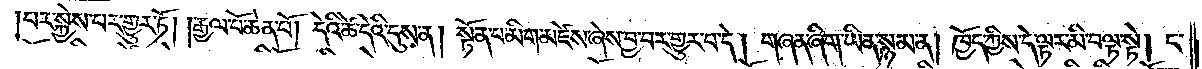པར་སྐྱེས་པར་གྱུར་ཏོ། །རྒྱལ་པོ་ཆེན་པོ། དེའི་ཚེ་དེའི་དུས་ན། སྟོན་པ་མིག་མཛེས་ཞེས་བྱ་བར་གྱུར་པ་དེ། གཞན་ཞིག་ཡིན་སྙམ་ན། ཁྱོད་ཀྱིས་དེ་ལྟར་མི་བལྟ་སྟེ། ང་
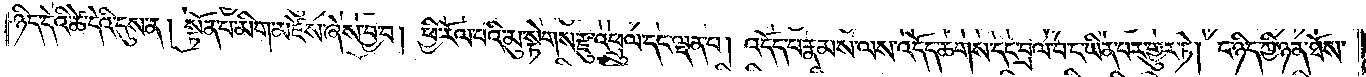ཉིད་དེའི་ཚེ་དེའི་དུས་ན། སྟོན་པ་མིག་མཛེས་ཞེས་བྱ་བ། ཕྱི་རོལ་པའི་མུ་སྟེགས་རྫུ་འཕྲུལ་དང་ལྡན་པ། འདོད་པ་རྣམས་ལས་འདོད་ཆགས་དང་བྲལ་བ་ང་ཡིན་པར་གྱུར་ཏེ། ང་ཉིད་ཀྱི་ཉན་ཐོས་
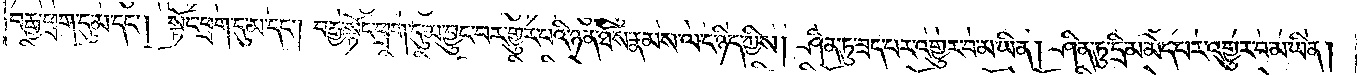བརྒྱ་ཕྲག་དུ་མ་དང༌། སྟོང་ཕྲག་དུ་མ་དང༌། བརྒྱ་སྟོང་ཕྲག་དུ་མ་བྱུང་བར་གྱུར་པའི་ཉན་ཐོས་རྣམས་ལ་ང་ཉིད་ཀྱིས། ཤིན་ཏུ་ཟད་པར་འགྱུར་བ་མ་ཡིན། ཤིན་ཏུ་དྲི་མ་མེད་པར་འགྱུར་བ་མ་ཡིན།
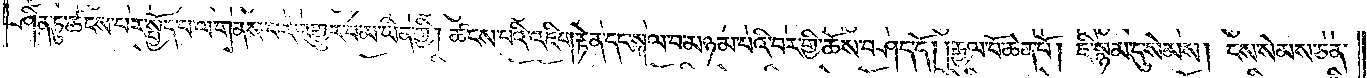ཤིན་ཏུ་ཚངས་པར་སྤྱོད་པ་ལ་གནས་པར་འགྱུར་བ་མ་ཡིན་གྱི། ཚངས་པའི་འཇིག་རྟེན་དང་སྐལ་བ་མཉམ་པའི་བར་གྱི་ཆོས་བཤད་དོ། །རྒྱལ་པོ་ཆེན་པོ། ཇི་སྙམ་དུ་སེམས། ངས་སེམས་ཅན་
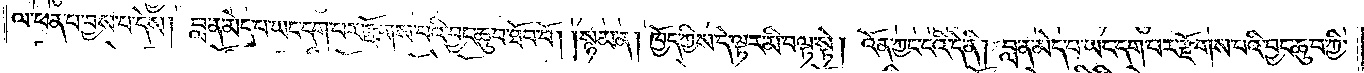ལ་ཕན་པ་བྱས་པ་དེས། བླ་ན་མེད་པ་ཡང་དག་པར་རྫོགས་པའི་བྱང་ཆུབ་ཐོབ་བོ། །སྙམ་ན། ཁྱོད་ཀྱིས་དེ་ལྟར་མི་བལྟ་སྟེ། འོན་ཀྱང་ངའི་དེ་ནི། བླ་ན་མེད་པ་ཡང་དག་པར་རྫོགས་པའི་བྱང་ཆུབ་ཀྱི་
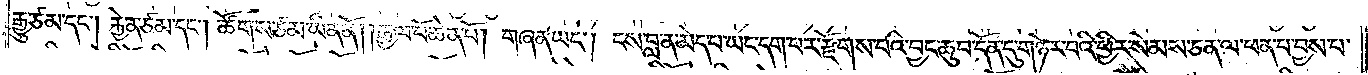རྒྱུ་ཙམ་དང༌། རྐྱེན་ཙམ་དང༌། ཚོགས་ཙམ་ཡིན་ནོ། །རྒྱལ་པོ་ཆེན་པོ། གཞན་ཡང༌། ངས་བླ་ན་མེད་པ་ཡང་དག་པར་རྫོགས་པའི་བྱང་ཆུབ་དོན་དུ་གཉེར་བའི་ཕྱིར་སེམས་ཅན་ལ་ཕན་པ་བྱས་པ་
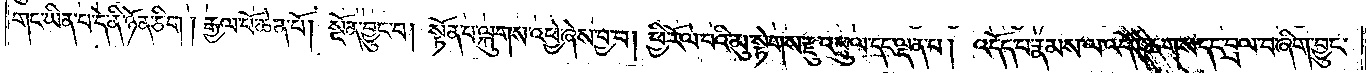གང་ཡིན་པ་དེ་ནི་ཉོན་ཅིག །རྒྱལ་པོ་ཆེན་པོ། སྔོན་བྱུང་བ། སྟོན་པ་ལྐུགས་འཕྱེ་ཞེས་བྱ་བ། ཕྱི་རོལ་པའི་མུ་སྟེགས་རྫུ་འཕྲུལ་དང་ལྡན་པ། འདོད་པ་རྣམས་ལ་འདོད་ཆགས་དང་བྲལ་བ་ཞིག་བྱུང་
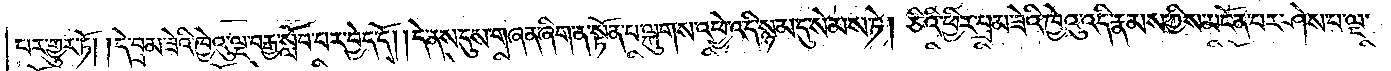པར་གྱུར་ཏོ། །དེ་བྲམ་ཟེའི་ཁྱེའུ་ལྔ་བརྒྱ་སློབ་པར་བྱེད་དོ། །དེ་ནས་དུས་གཞན་ཞིག་ན་སྟོན་པ་ལྐུགས་འཕྱེ་འདི་སྙམ་དུ་སེམས་ཏེ། ཅིའི་ཕྱིར་བྲམ་ཟེའི་ཁྱེའུ་འདི་རྣམས་ཀྱིས་མངོན་པར་ཤེས་པ་ལྔ་
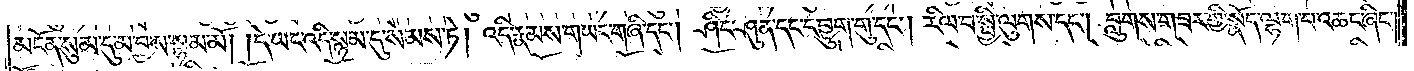མངོན་སུམ་དུ་མ་བྱས་སྙམ་མོ། །དེ་ཡང་འདི་སྙམ་དུ་སེམས་ཏེ། འདི་རྣམས་གཡང་གཞི་དང༌། ཤིང་ཤུན་དང་དབྱུག་གུ་དང༌། རིལ་བ་སྤྱི་ལུགས་དང༌། བླུགས་གཟར་གྱི་སྣོད་ལྷག་པར་འཆང་ཞིང༌།
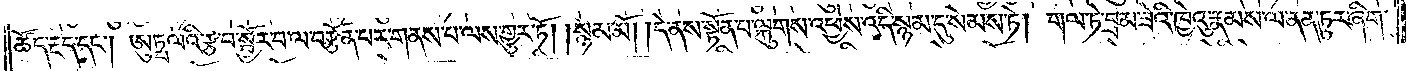ཚོད་རྔད་དང༌། ཨུཏྤལའི་རྩ་བ་སྦྱོར་བ་ལ་བརྩོན་པར་གནས་པ་ལས་གྱུར་ཏོ། །སྙམ་མོ། །དེ་ནས་སྟོན་པ་ལྐུགས་འཕྱེས་འདི་སྙམ་དུ་སེམས་ཏེ། གལ་ཏེ་བྲམ་ཟེའི་ཁྱེའུ་རྣམས་ལ་ནན་ཏུར་ཞིག་
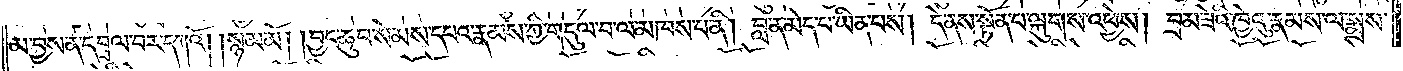མ་བྱས་ན་དབྲལ་བར་དཀའོ། །སྙམ་མོ། །བྱང་ཆུབ་སེམས་དཔའ་རྣམས་ཀྱི་གདུལ་བ་ལ་མཁས་པ་ནི། བླ་ན་མེད་པ་ཡིན་པས། དེ་ནས་སྟོན་པ་ལྐུགས་འཕྱེས། བྲམ་ཟེའི་ཁྱེའུ་རྣམས་ལ་སྨྲས་
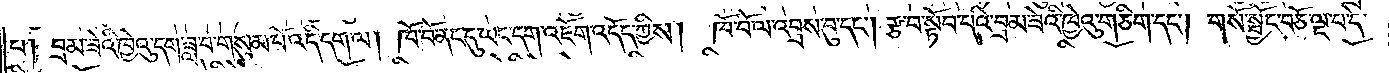པ། བྲམ་ཟེའི་ཁྱེའུ་དག་ཟླ་བ་གསུམ་པོ་འདི་དག་ལ། ཁོ་བོ་ནང་དུ་ཡང་དག་འཇོག་འདོད་ཀྱིས། ཁོ་བོ་ལ་འབྲས་བུ་དང༌། རྩ་བ་སྟོབ་པའི་བྲམ་ཟེའི་ཁྱེའུ་གཅིག་དང༌། གསོ་སྦྱོང་བཅོ་ལྔ་པ་དེ་
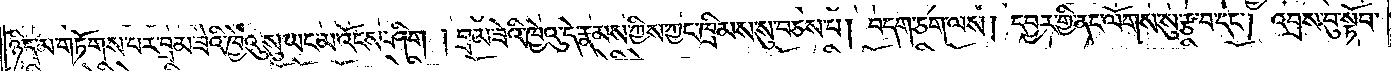ཉིད་མ་གཏོགས་པར་བྲམ་ཟེའི་ཁྱེའུ་སུ་ཡང་མ་འོངས་ཤིག །བྲམ་ཟེའི་ཁྱེའུ་དེ་རྣམས་ཀྱིས་ཀྱང་ཁྲིམས་སུ་བཅས་པ། བདག་ཅག་ལས། དབྱར་གྱི་ནང་ལོགས་སུ་རྩ་བ་དང༌། འབྲས་བུ་སྟོབ་
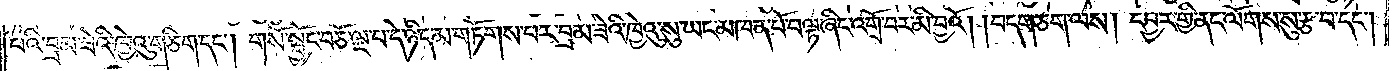པའི་བྲམ་ཟེའི་ཁྱེའུ་གཅིག་དང༌། གསོ་སྦྱོང་བཅོ་ལྔ་པ་དེ་ཉིད་མ་གཏོགས་པར་བྲམ་ཟེའི་ཁྱེའུ་སུ་ཡང་མཁན་པོ་བལྟ་ཞིང་འགྲོ་བར་མི་བྱའོ། །བདག་ཅག་ལས། དབྱར་གྱི་ནང་ལོགས་སུ་རྩ་བ་དང༌།
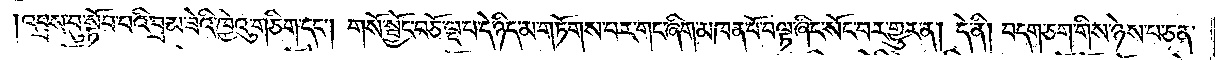འབྲས་བུ་སྟོབ་པའི་བྲམ་ཟེའི་ཁྱེའུ་གཅིག་དང༌། གསོ་སྦྱོང་བཅོ་ལྔ་པ་དེ་ཉིད་མ་གཏོགས་པར་གང་ཞིག་མཁན་པོ་བལྟ་ཞིང་སོང་བར་གྱུར་ན། དེ་ནི། བདག་ཅག་གིས་ཉེས་པ་ཅན་
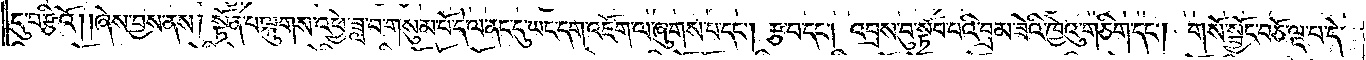དུ་བརྩིའོ། །ཞེས་བྱས་ནས། སྟོན་པ་ལྐུགས་འཕྱེ་ཟླ་བ་གསུམ་པོ་དེ་ལ་ནང་དུ་ཡང་དག་འཇོག་ལ་ཞུགས་པ་དང༌། རྩ་བ་དང༌། འབྲས་བུ་སྟོབ་པའི་བྲམ་ཟེའི་ཁྱེའུ་གཅིག་དང༌། གསོ་སྦྱོང་བཅོ་ལྔ་པ་དེ་
